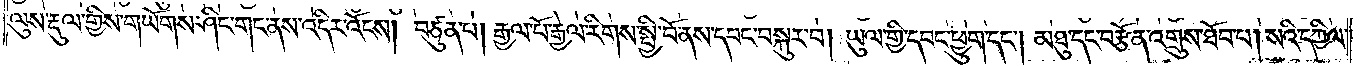ལུས་རྡུལ་གྱིས་གཡོགས་ཤིང་གང་ནས་འདིར་འོངས། བཙུན་པ། རྒྱལ་པོ་རྒྱལ་རིགས་སྤྱི་བོ་ནས་དབང་བསྐུར་བ། ཡུལ་གྱི་དབང་ཕྱུག་དང༌། མཐུ་དང་བརྩོན་འགྲུས་ཐོབ་པ། སའི་དཀྱིལ་
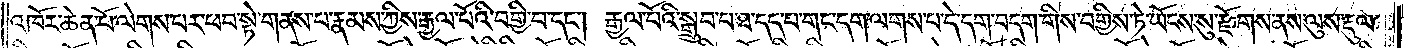འཁོར་ཆེན་པོ་ལེགས་པར་ཕབ་སྟེ་གནས་པ་རྣམས་ཀྱིས་རྒྱལ་པོའི་བགྱི་བ་དང༌། རྒྱལ་པོའི་སྒྲུབ་པ་ཐ་དད་པ་གང་དག་ལགས་པ་དེ་དག་བདག་གིས་བགྱིས་ཏེ་ཡོངས་སུ་རྫོགས་ནས་ལུས་རྡུལ་
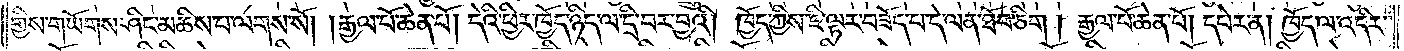གྱིས་གཡོགས་ཤིང་མཆིས་པ་ལགས་སོ། །རྒྱལ་པོ་ཆེན་པོ། དེའི་ཕྱིར་ཁྱོད་ཉིད་ལ་དྲི་བར་བྱའི། ཁྱོད་ཀྱིས་ཇི་ལྟར་བཟོད་པ་དེ་ལན་ཐོབ་ཅིག །རྒྱལ་པོ་ཆེན་པོ། དཔེར་ན། ཁྱོད་ལ་འདིར་
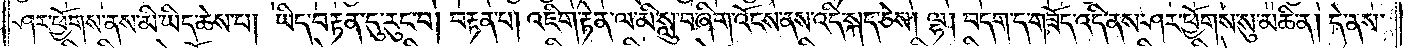ཤར་ཕྱོགས་ནས་མི་ཡིད་ཆེས་པ། ཡིད་བརྟན་དུ་རུང་བ། བརྟན་པ། འཇིག་རྟེན་ལ་མི་སླུ་བ་ཞིག་འོངས་ནས་འདི་སྐད་ཅེས། ལྷ། བདག་ད་གཟོད་འདི་ནས་ཤར་ཕྱོགས་སུ་མཆི་ན། དེ་ནས་
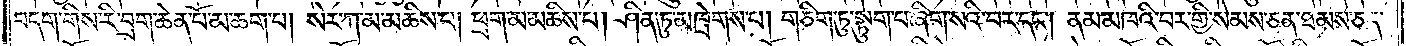བདག་གིས་རི་བྲག་ཆེན་པོ་མ་ཆག་པ། སེར་ཀ་མ་མཆིས་པ། ཕྲག་མ་མཆིས་པ། ཤིན་ཏུ་མཁྲེགས་པ། གཅིག་ཏུ་སྟུག་པ་ཞིག་སའི་བར་དང༌། ནམ་མཁའི་བར་གྱི་སེམས་ཅན་ཐམས་ཅད་
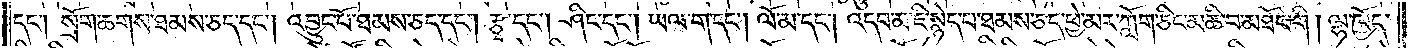དང༌། སྲོག་ཆགས་ཐམས་ཅད་དང༌། འབྱུང་པོ་ཐམས་ཅད་དང༌། རྩྭ་དང༌། ཤིང་དང༌། ཡལ་ག་དང༌། ལོ་མ་དང༌། འདབ་མ་ཇི་སྙེད་པ་ཐམས་ཅད་ཕྱེ་མར་ཀློག་ཅིང་མཆི་བ་མཐོང་གི། ལྷ་ཁྱོད་
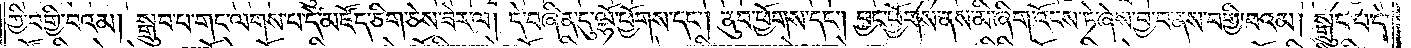ཀྱི་བགྱི་བའམ། སྒྲུབ་པ་གང་ལགས་པ་དེ་མཛོད་ཅིག་ཅེས་ཟེར་ལ། དེ་བཞིན་དུ་ལྷོ་ཕྱོགས་དང༌། ནུབ་ཕྱོགས་དང༌། བྱང་ཕྱོགས་ནས་མི་ཞིག་འོངས་ཏེ་ཞེས་བྱ་བ་ནས་བགྱི་བའམ། སྒྲུབ་པ་དེ་
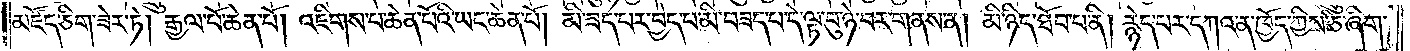མཛོད་ཅིག་ཟེར་ཏེ། རྒྱལ་པོ་ཆེན་པོ། འཇིགས་པ་ཆེན་པོའི་ཡང་ཆེན་པོ། མི་ཟད་པར་བྱེད་པ་མི་བཟད་པ་དེ་ལྟ་བུ་ཉེ་བར་གནས་ན། མི་ཉིད་ཐོབ་པ་ནི། རྙེད་པར་དཀའ་ན་ཁྱོད་ཀྱིས་ཅི་ཞིག་
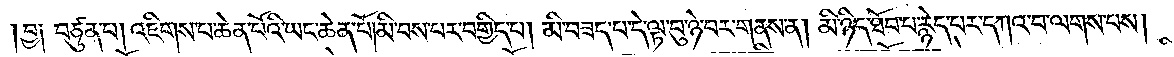བྱ༑ བཙུན་པ། འཇིགས་པ་ཆེན་པོའི་ཡང་ཆེན་པོ། མི་བས་པར་བགྱིད་པ། མི་བཟད་པ་དེ་ལྟ་བུ་ཉེ་བར་གནས་ན། མི་ཉིད་ཐོབ་པ་རྙེད་པར་དཀའ་བ་ལགས་པས།
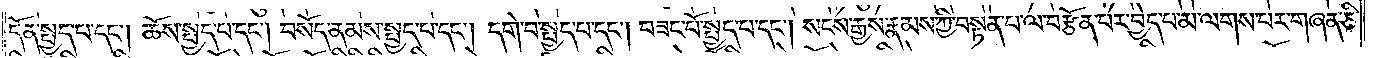དོན་སྤྱད་པ་དང༌། ཆོས་སྤྱད་པ་དང༌། བསོད་ནམས་སྤྱད་པ་དང༌། དགེ་བ་སྤྱད་པ་དང༌། བཟང་པོ་སྤྱད་པ་དང༌། སངས་རྒྱས་རྣམས་ཀྱི་བསྟན་པ་ལ་བརྩོན་པར་བྱེད་པ་མ་ལགས་པར་གཞན་ཅི་
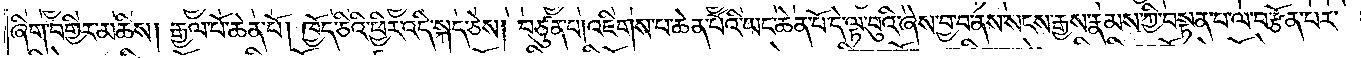ཞིག་བགྱིར་མཆིས། རྒྱལ་པོ་ཆེན་པོ། ཁྱོད་ཅིའི་ཕྱིར་འདི་སྐད་ཅེས། བཙུན་པ། འཇིགས་པ་ཆེན་པོའི་ཡང་ཆེན་པོ་དེ་ལྟ་བུའི་ཞེས་བྱ་བ་ནས་སངས་རྒྱས་རྣམས་ཀྱི་བསྟན་པ་ལ་བརྩོན་པར་
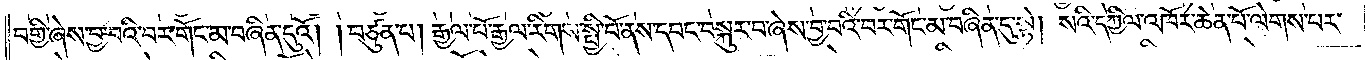བགྱི་ཞེས་བྱ་བའི་བར་གོང་མ་བཞིན་དུའོ། །བཙུན་པ། རྒྱལ་པོ་རྒྱལ་རིགས་སྤྱི་བོ་ནས་དབང་བསྐུར་བ་ཞེས་བྱ་བའི་བར་གོང་མ་བཞིན་དུ་སྟེ། སའི་དཀྱིལ་འཁོར་ཆེན་པོ་ལེགས་པར་
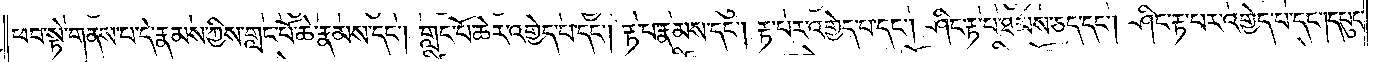ཕབ་སྟེ་གནས་པ་དེ་རྣམས་ཀྱིས་གླང་པོ་ཆེ་རྣམས་དང༌། གླང་པོ་ཆེར་འགྱེད་པ་དང༌། རྟ་པ་རྣམས་དང༌། རྟ་པར་འགྱེད་པ་དང༌། ཤིང་རྟ་པ་ཐམས་ཅད་དང༌། ཤིང་རྟ་པར་འགྱེད་པ་དང༌། དཔུང་
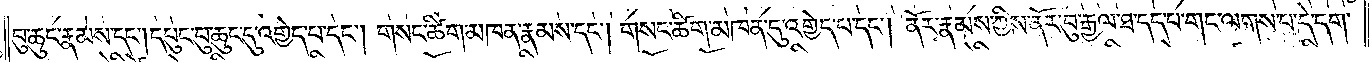བུ་ཆུང་རྣམས་དང༌། དཔུང་བུ་ཆུང་དུ་འགྱེད་པ་དང༌། གསང་ཚིག་མཁན་རྣམས་དང༌། གསང་ཚིག་མཁན་དུ་འགྱེད་པ་དང༌། ནོར་རྣམས་ཀྱིས་ནོར་བུ་རྒྱལ་ཐ་དད་པ་གང་ལགས་པ་དེ་དག་
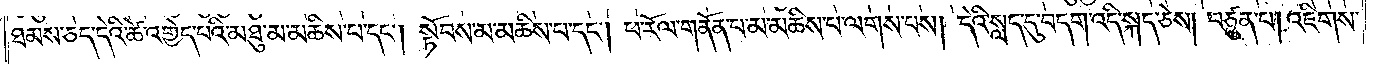ཐམས་ཅད་དེའི་ཚེ་འགྱེད་པའི་མཐུ་མ་མཆིས་པ་དང༌། སྟོབས་མ་མཆིས་པ་དང༌། ཕ་རོལ་གནོན་པ་མ་མཆིས་པ་ལགས་པས། དེའི་སླད་དུ་བདག་འདི་སྐད་ཅེས། བཙུན་པ། འཇིགས་
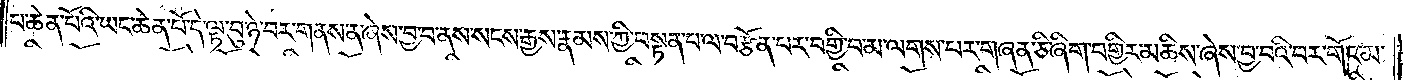པ་ཆེན་པོའི་ཡང་ཆེན་པོ་དེ་ལྟ་བུ་ཉེ་བར་གནས་ན་ཞེས་བྱ་བ་ནས་སངས་རྒྱས་རྣམས་ཀྱི་བསྟན་པ་ལ་བརྩོན་པར་བགྱི་བ་མ་ལགས་པར་གཞན་ཅི་ཞིག་བགྱིར་མཆིས་ཞེས་བྱ་བའི་བར་གོང་མ་
